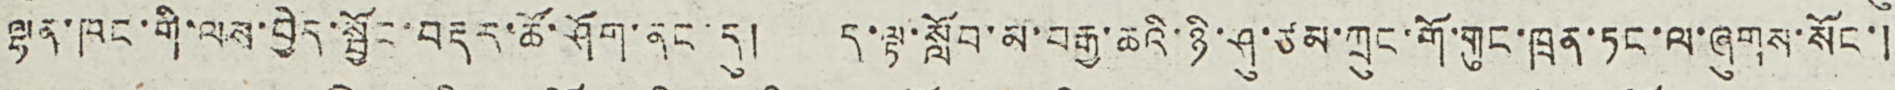ལྷན་ཁང་གི་ལས་བྱེད་སྦྱོང་བརྡར་ཚོ་ཤོག་ནང་དུ། ད་ལྟ་སློབ་མ་བརྒྱ་ཆའི་ཉི་ཤུ་ཙམ་ཀྲུང་གོ་གུང་ཁྲན་ཏང་ལ་ཞུགས་སོང་།
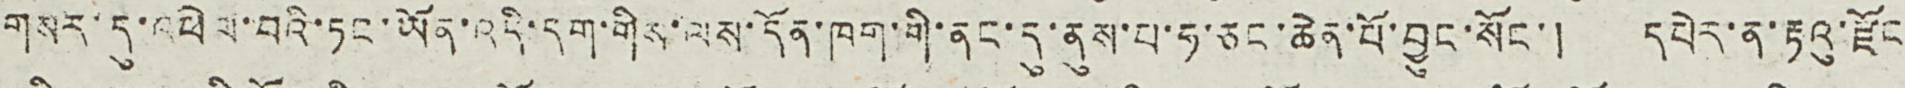གསར་དུ་འཕེལ་བའི་ཏང་ཡོན་འདི་དག་གིས་ལས་དོན་ཁག་གི་ནང་དུ་ནུས་པ་ཧ་ཅང་ཆེན་པོ་བྱུང་སོང་། དཔེར་ན་རྟའུ་རྫོང
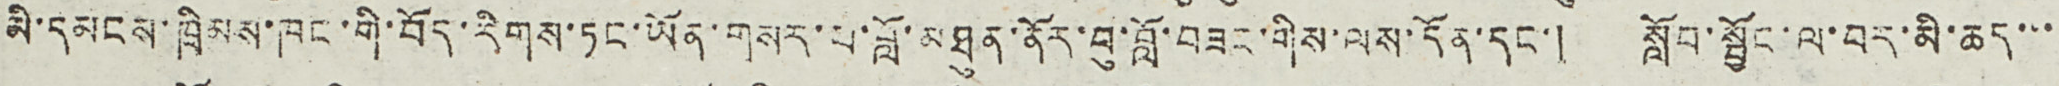མི་དམངས་ཁྲིམས་ཁང་གི་བོད་རིགས་ཏང་ཡོན་གསར་པ་བློ་མཐུན་ནོར་བུ་བློ་བཟང་གིས་ལས་དོན་དང་། སློབ་སྦྱོང་ལ་བར་མི་ཆད་་་
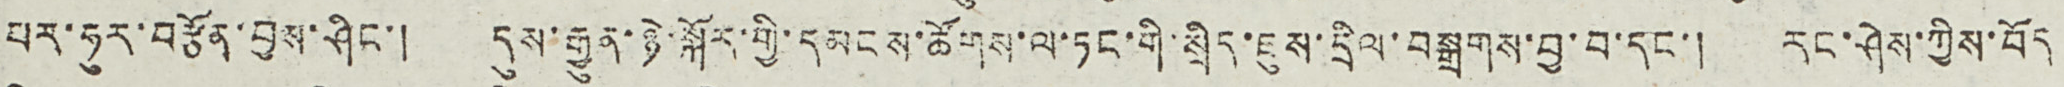པར་ཧུར་བརྩོན་བྱས་ཤིང་། དུས་རྒྱུན་ཉེ་སྐོར་གྱི་དམངས་ཚོགས་ལ་ཏང་གི་སྲིད་ཇུས་དྲིལ་བསྒྲགས་བྱ་བ་དང་། རང་ཤེས་ཀྱིས་བོད
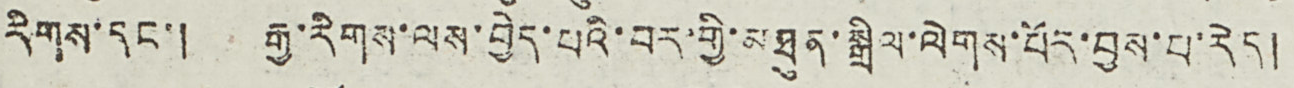རིགས་དང་། རྒྱ་རིགས་ལས་བྱེད་པའི་བར་གྱི་མཐུན་སྒྲིལ་ལེགས་པོར་བྱས་པ་རེད།
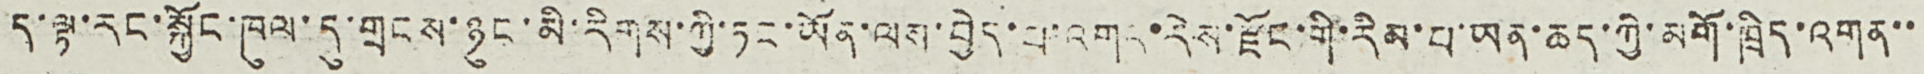ད་ལྟ་རང་སྐྱོང་ཁུལ་དུ་གྲངས་ཉུང་མི་རིགས་ཀྱི་ཏང་ཡོན་ལས་བྱེད་པ་འགར་རེས་རྫོང་གི་རིམ་པ་ཡན་ཆད་ཀྱི་མགོ་ཁྲིད་འགན་་
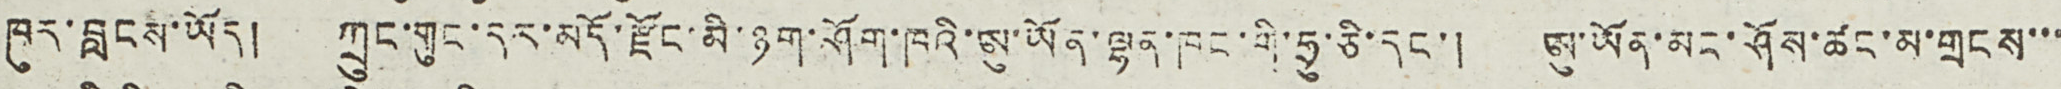ཁུར་བླངས་ཡོད། ཀྲུང་གུང་དར་མདོ་རྫོང་མི་ཉག་ཤོག་ཁའི་ཨུ་ཡོན་ལྷན་ཁང་གི་ཧྲུ་ཅི་དང་། ཨུ་ཡོན་མང་ཤོས་ཚང་མ་གྲངས་་་
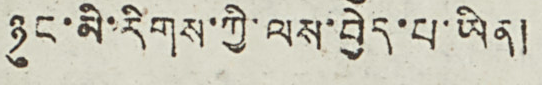ཉུང་མི་རིགས་ཀྱི་ལས་བྱེད་པ་ཡིན།
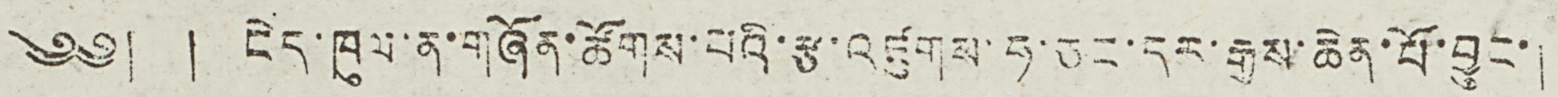༄༅། ། ངེད་ཁུལ་ན་གཞོན་ཚོགས་པའི་རྩ་འཛུགས་ཧ་ཅང་དར་རྒྱས་ཆེན་པོ་བྱུང་།
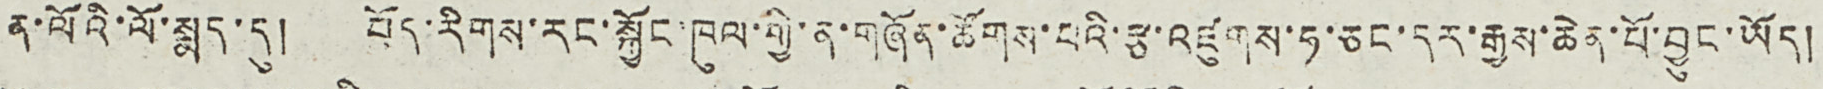ན་ལོའི་ལོ་སྨད་དུ། བོད་རིགས་རང་སྐྱོང་ཁུལ་གྱི་ན་གཞོན་ཚོགས་པའི་རྩ་འཛུགས་ཧ་ཅང་དར་རྒྱས་ཆེན་པོ་བྱུང་ཡོད།
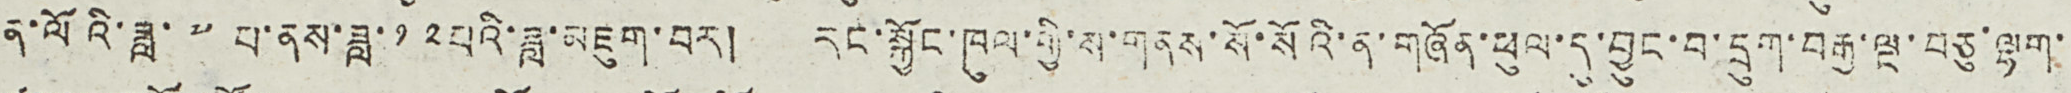ན་ལོའི་ཟླ་ ༧ པ་ནས་ཟླ་ ༡༢ པའི་ཟླ་མཇུག་བར། རང་སྐྱོང་ཁུལ་གྱི་ས་གནས་སོ་སོའི་ན་གཞོན་ཕུལ་དུ་བྱུང་བ་དྲུག་བརྒྱ་ལྔ་བཅུ་ལྷག་
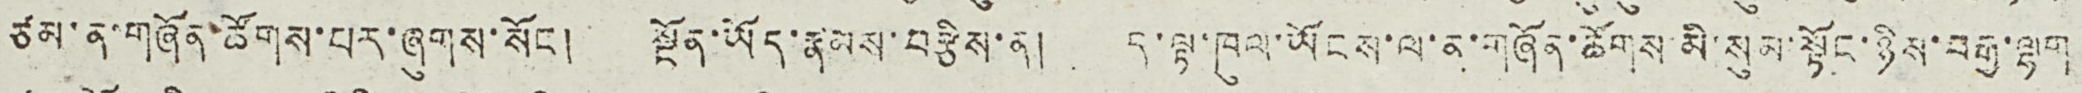ཙམ་ན་གཞོན་ཚོགས་པར་ཞུགས་སོང ། སྔོན་ཡོད་རྣམས་བརྩིས་ན། ད་ལྟ་ཁུལ་ཡོངས་ལ་ན་གཞོན་ཚོགས་མི་སུམ་སྟོང་ཉིས་བརྒྱ་ལྷག
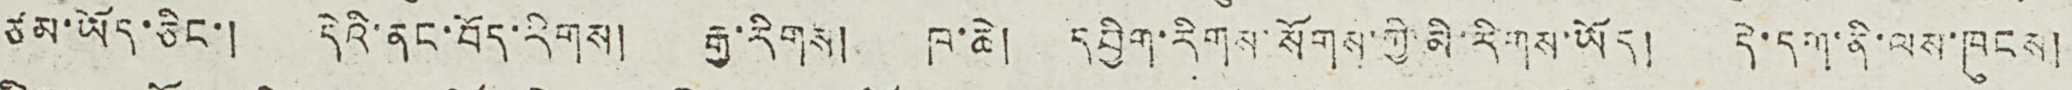ཙམ་ཡོད་ཅིང་། དེའི་ནང་བོད་རིགས། རྒྱ་རིགས། ཁ་ཆེ། དབྱིག་རིགས་སོགས་ཀྱི་མི་རིགས་ཡོད། དེ་དག་ནི་ལས་ཁུངས།
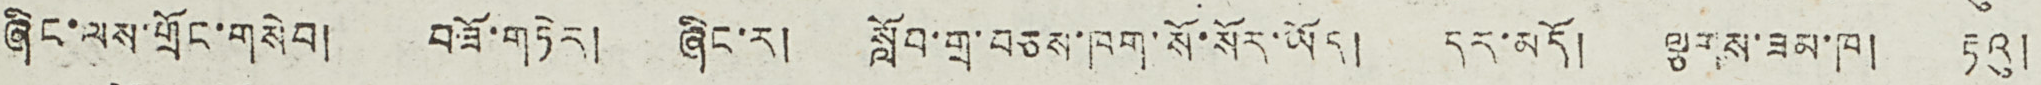ཞིང་ལས་གྲོང་གསེབ། བཟོ་གཏེར། ཞིང་ར། སློབ་གྲྭ་བཅས་ཁག་སོ་སོར་ཡོད། དར་མདོ། ལྕགས་ཟམ་ཁ། རྟའུ།
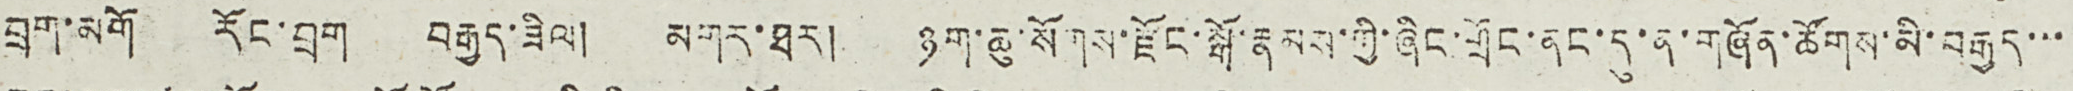བྲག་མགོ རོང་བྲག བརྒྱད་ཟིལ། མགར་ཐར། ཉག་ཆུ་སོགས་རྫོང་སྒོ་རྣམས་ཀྱི་ཞིང་གྲོང་ནང་དུ་ན་གཞོན་ཚོགས་མི་བརྒྱད་་་
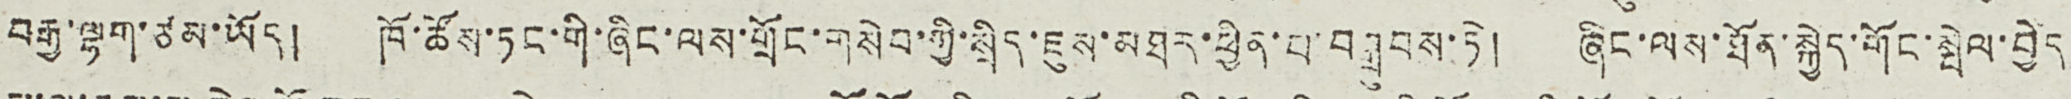བརྒྱ་ལྷག་ཙམ་ཡོད། ཁོ་ཚོས་ཏང་གི་ཞིང་ལས་གྲོང་གསེབ་ཀྱི་སྲིད་ཇུས་མཐར་ཕྱིན་པ་བསྒྲུབས་ཏེ། ཞིང་ལས་ཐོན་སྐྱེད་གོང་སྤེལ་བྱེད
